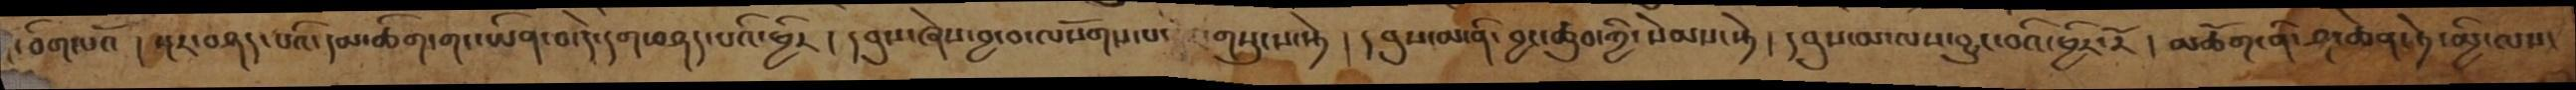་ཅིག་པའོ། སྔར་བཤད་པའི་དམ་ཚིག་གང་ཡིན་བ་དེ་དག་བཤད་པའི་ཕྱིར། དབུས་ཞེས་བྱ་བ་ལསོགས་པ་གསུངས་སྟེ། དབུས་མ་ནི་བྱང་ཆུབ་ཀྱི་སེམས་སྟེ། དབུས་མ་ལས་བྱུང་བའི་ཕྱིར་རོ། མཆོག་ནི་ཤ་ཆེན་ཏེ་མྱི་ལས་
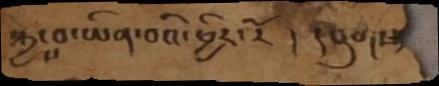སྐྱེས་བ་ཡིན་བའི་ཕྱིར་རོ། དབུགས་
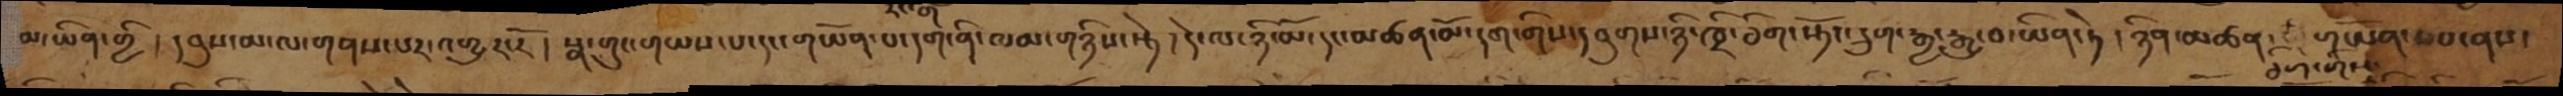མ་ཡིན་གྱི། དབུས་མ་ལ་གནས་པར་འགྱུར་རོ། སྣ་གུང་གཡས་པ་དང་གཡོན་པ་དག་ནི་ལམ་གཉིས་སྟེ། དེ་ལ་ཉི་མོ་དང་མཚན་མོ་དག་གིས་དབུགས་ཉི་ཁྲི་ཅིག་སྟོང་དྲུག་རྒྱ་རྒྱུ་བ་ཡིན་ཏེ། ཉིན་མཚན་ཅིག་གིས་གཡོན་པས་ནས་
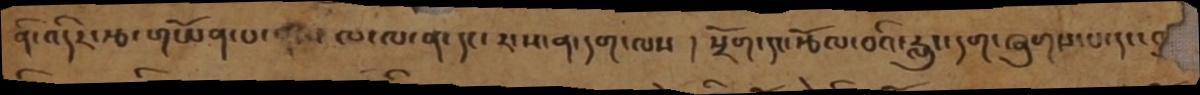ནི་འདིར་རྩ་གཡོན་པ་ནས་ལ་ལ་ན་དང་ར་ས་ན་དག་ལས །སྲོག་དང་རྩོལ་བའི་རླུང་དག་ཞུགས་པ་དང་
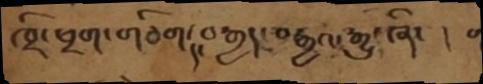ཁྲི་ཕྲག་གཅིག་དང་བརྒྱད་བརྒྱའ་རྒྱུ་ཞིང། བ
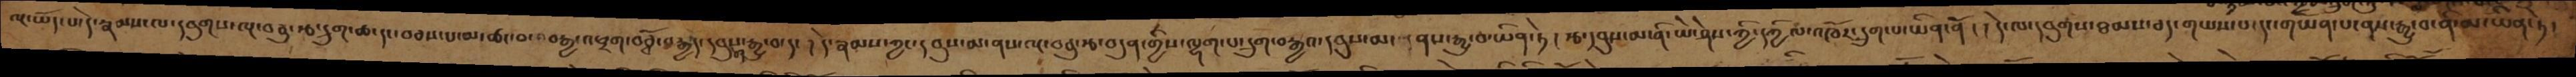ལྔ་ཡོད་པ་དེ་རྣམས་ལ་དབུགས་ལྔ་བཅུ་རྩ་དྲུག་ཆ་དང་བཅས་པ་མ་ཚང་བ་བརྒྱ་འཕྲག་བཅྭོ་བརྒྱད་དབུགས་རྒྱུ་བ་དང། དེ་རྣམས་ཀྱང་དབུས་མ་ནས་ལྔ་བཅུ་རྩ་བདུན་གྱིས་ལྷག་པ་དྲུག་བརྒྱའ་དབུས་མ་ནས་རྒྱུ་བ་ཡིན་ཏེ། རྩ་དབུས་མ་ནི་ཡེ་ཤེས་ཀྱི་དཀྱིལ་འཁོར་དྲུག་པ་ཡིན་ནོ། །དེ་ལ་དབུགས་ཐམས་ཅད་གཡས་པ་དང་གཡོན་པ་ནས་རྒྱུ་བ་ནི་མ་ཡིན་ཏེ།
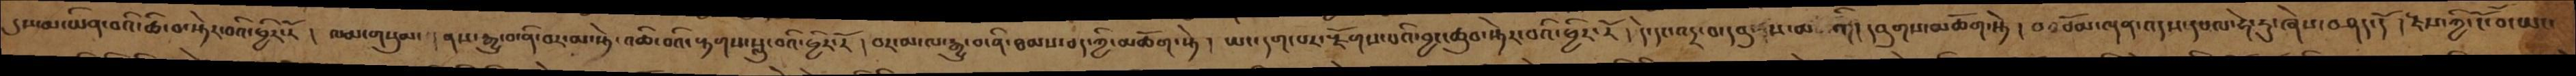དུས་ཡིན་བའི་ཆི་བ་སྟེར་བའི་ཕྱིར་རོ། ལམ་གསུམ་ ། ནས་རྒྱུ་བ་ནི་བར་མ་སྟེ་འཆི་བའི་རྟགས་སླུ་བའི་ཕྱིར་རོ། བར་མ་ལ་རྒྱུ་བ་ནི་ཐམས་ཅད་ཀྱི་མཆོག་སྟེ། ཡང་དག་པར་རྫོགས་པའི་བྱང་ཆུབ་སྟེར་བའི་ཕྱིར་རོ། དེ་དང་འདྲ་བ་དབུ ས་མ འདི། དབུགས་མཆོག་སྟེ། བཅོམ་ལྡན་འདས་དཔལ་ཧེ་རུ་ཞེས་བཤད་དོ། རྫས་ཀྱི་ངོ་བོ་ཡང་
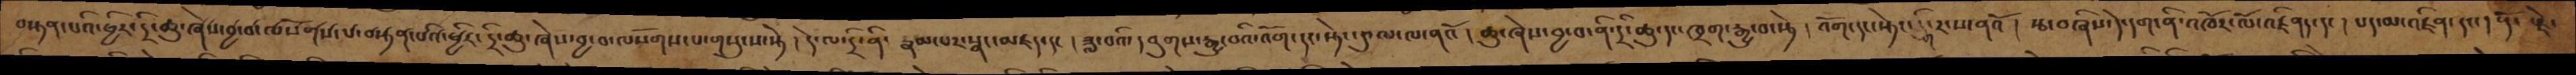བསྟན་པའི་ཕྱིར་དྲི་ཆུ་ཞེས་བྱ་བ་ལསོགས་པ་བསྟན་པའི་ཕྱིར་དྲི་ཆུ་ཞེས་བྱ་བ་ལསོགས་པ་གསུངས་སྟེ །དེ་ལ་དྲི་ནི་རྣམ་པར་སྣང་མཛད་དང །ཟླ་བའི་དབུགས་རྒྱུ་བའི་འོག་དང་སྟེང་དུ་ལ་ལ་ནའོ ། ཆུ་ཞེས་བྱ་བ་ནི་དྲི་ཆུ་དང་ཁྲག་རྒྱུ་བ་སྟེ །འོག་དང་སྟེང་གི་ར་ས་ནའོ ། རྩ་བཞིས་དེ་དག་ནི་འཁོར་ལོ་འཛིནད་དང་ པད་མ་འཛིན་དང། རྡོ་རྗེ་
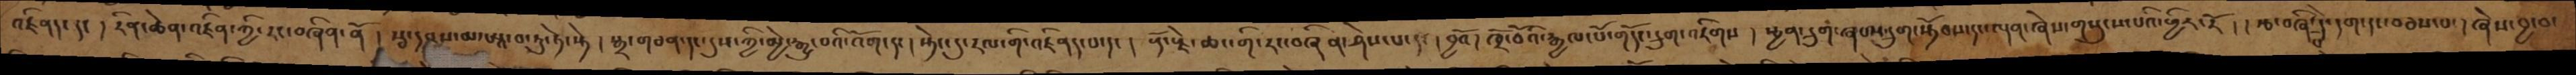འཛིནད་དང། རིན་ཆེན་འཛིན་ཀྱི་རང་བཞིན་ནོ། རྩ་དབུས་མ་ཨཱ་བ་ཏུ་ཏེ་སྟེ། སྒྲ་གཅན་དང་དུས་ཀྱི་མྱེ་རྒྱུ་བའི་འོག་དང །སྟེང་དུ་རལ་གི་འཛིནད་པ་དང །རྡོ་རྗེ་ཆང་གི་རང་བཞིན་ཤེས་པ་དང།  བྱའོ། ཁྲོ་བོའི་རྒྱལ་པོ་གདོང་དྲུག་འརིགས ། སྤྱན་དྲུག་ཞབས་དྲུག་སྟོབས་དང་ལྡན་ཞེས་གསུངས་པའི་ཕྱིར་རོ།  །རྩ་བཞི་པོ་དེ་དག་དང་བཅས་པ་ །ཞེས་བྱ་བ་
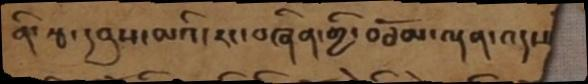ནི་རྩ་དབུས་མའི་རང་བཞིན་གྱི་བཅོམ་ལྡན་འདས
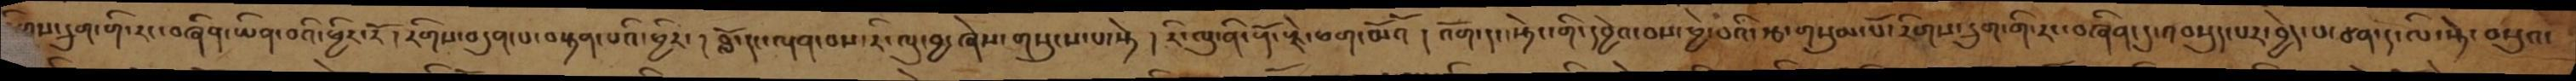གྱིས་དྲུག་གི་རང་བཞིན་ཡིན་བའི་ཕྱིར་རོ། རིགས་བདུན་པ་བསྟན་པའི་ཕྱིར།  བློ་དང་ལྡན་བས་རི་ལུ་བྱ་ཞེས་གསུངས་པ་སྟེ། རི་ལུ་ནི་རྡོ་རྗེ་ཕག་མོའོ། འོག་དང་སྟེང་གི་དབྱེའ་བས་ཕྱེ་བའི་རྩ་གསུམ་པོ་རིགས་དྲུག་གི་རང་བཞིན་དུ་འབསྡུད་པར་བྱེད་པ་ཙན་ད་ལི་སྟེ་བསྡུའ་
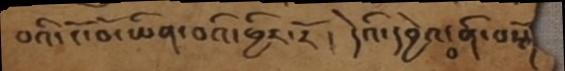བའི་ངོ་བོ་ཡིན་པའི་ཕྱིར་རོ། དེའི་དབྱེའ་བ་ནི་བརྩོ
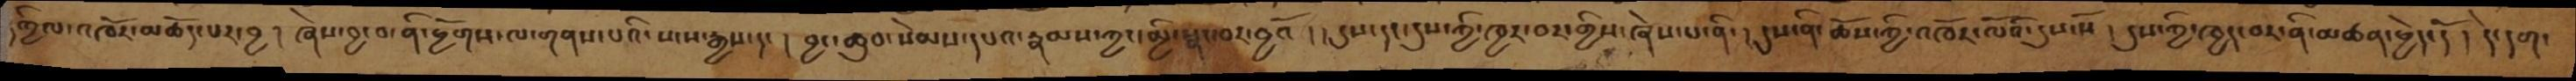དཀྱིལ་འཁོར་མཆོད་པར་བྱ། ཞེས་བྱ་བ་ནི་ཕྱོགས་ལ་གནས་པའི་སངས་རྒྱས་དང། བྱང་ཆུབ་སེམས་དཔའ་རྣམས་ཀྱང་མྱི་སྣང་བར་བྱའོ། །དུས་དང་དུས་ཀྱི་ཁྱར་བར་གྱིས་ཞེས་པ་ནི་། དུས་ནི་ཆོས་ཀྱི་འཁོར་ལོའི་དུས་སོ། དུས་ཀྱི་ཁྱད་བར་ནི་མཚན་ཕྱེད་དོ། དེ་དག་
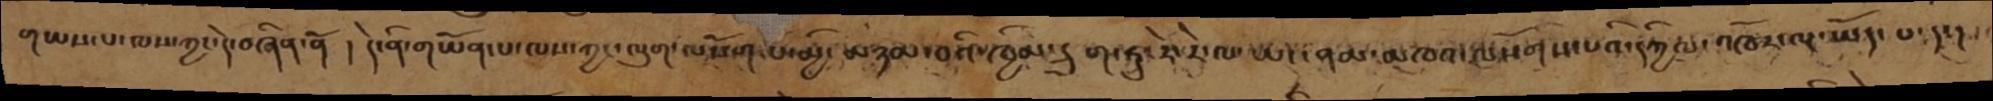གཡས་པ་ལས་ཀྱང་དེ་བཞིན་ནོ ། དེ་ནི་གཡོན་པ་ལས་ཀྱང་ལུག་ལསོགས་པ་མྱི་མཉམ་བའི་ཁྱིམ་དྲུག་ཏུ་རེ་རེ་ལ་ཡང་ནམ་མཁའ་ལསོགས་པའི་དཀྱིལ་འཁོར་ལྔ་ཡོད་པ་དང་།
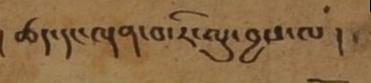། ཚད་དང་ལྡན་བ་རི་ལུ་བྱས་ལ །
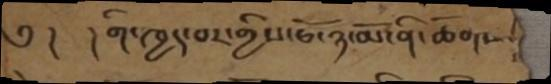༅།  །གི་ཁྱད་པར་གྱིས་ཕོ་ཉ་མོ་ནི་ཆོག་
